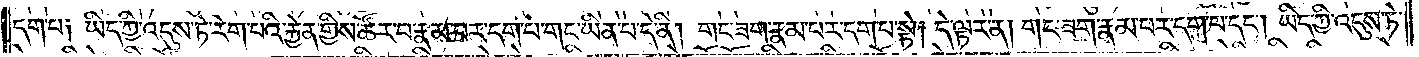དག་པ༑ ཡིད་ཀྱི་འདུས་ཏེ་རེག་པའི་རྐྱེན་གྱིས་ཚོར་བ་རྣམ་པར་དག་པ་གང་ཡིན་པ་དེ་ནི། གང་ཟག་རྣམ་པར་དག་པ་སྟེ། དེ་ལྟར་ན། གང་ཟག་རྣམ་པར་དག་པ་དང༌། ཡིད་ཀྱི་འདུས་ཏེ་
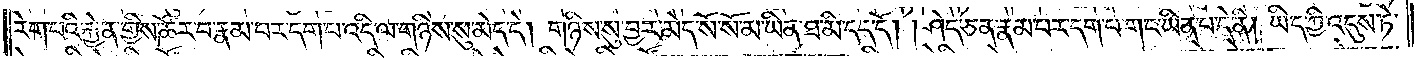རེག་པའི་རྐྱེན་གྱིས་ཚོར་བ་རྣམ་པར་དག་པ་འདི་ལ་གཉིས་སུ་མེད་དེ། གཉིས་སུ་བྱར་མེད་སོ་སོ་མ་ཡིན་ཐ་མི་དད་དོ། །ཤེད་ཅན་རྣམ་པར་དག་པ་གང་ཡིན་པ་དེ་ནི། ཡིད་ཀྱི་འདུས་ཏེ་
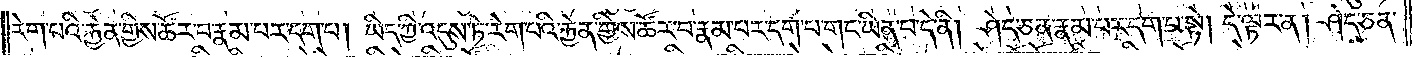རེག་པའི་རྐྱེན་གྱིས་ཚོར་བ་རྣམ་པར་དག་པ། ཡིད་ཀྱི་འདུས་ཏེ་རེག་པའི་རྐྱེན་གྱིས་ཚོར་བ་རྣམ་པར་དག་གང་ཡིན་པ་དེ་ནི། ཤེད་ཅན་རྣམ་པར་དག་པ་སྟེ། དེ་ལྟར་ན། ཤེད་ཅན་
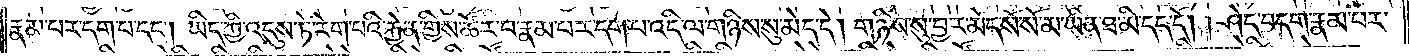རྣམ་པར་དག་པ་དང༌། ཡིད་ཀྱི་འདུས་ཏེ་རེག་པའི་རྐྱེན་གྱིས་ཚོར་བ་རྣམ་པར་དག་པ་འདི་ལ་གཉིས་སུ་མེད་དེ། གཉིས་སུ་བྱར་མེད་སོ་སོ་མ་ཡིན་ཐ་མི་དད་དོ། །ཤེད་བདག་རྣམ་པར་
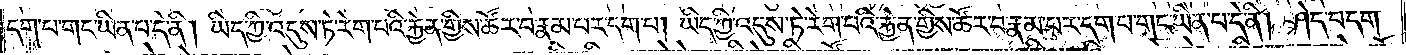དག་པ་གང་ཡིན་པ་དེ་ནི། ཡིད་ཀྱི་འདུས་ཏེ་རེག་པའི་རྐྱེན་གྱིས་ཚོར་བ་རྣམ་པར་དག་པ། ཡིད་ཀྱི་འདུས་ཏེ་རེག་པའི་རྐྱེན་གྱིས་ཚོར་བ་རྣམ་པར་དག་པ་གང་ཡིན་པ་དེ་ནི། ཤེད་བདག་
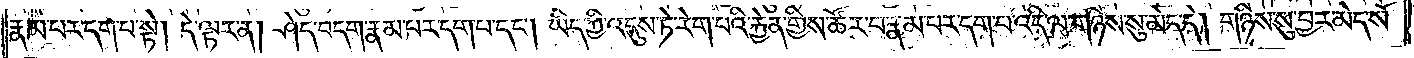རྣམ་པར་དག་པ་སྟེ། དེ་ལྟར་ན། ཤེད་བདག་རྣམ་པར་དག་པ་དང༌། ཡིད་ཀྱི་འདུས་ཏེ་རེག་པའི་རྐྱེན་གྱིས་ཚོར་བ་རྣམ་པར་དག་པ་འདི་ལ་གཉིས་སུ་མེད་དེ། གཉིས་སུ་བྱར་མེད་སོ་
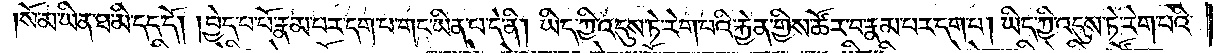སོ་མ་ཡིན་ཐ་མི་དད་དོ། །བྱེད་པ་པོ་རྣམ་པར་དག་པ་གང་ཡིན་པ་དེ་ནི། ཡིད་ཀྱི་འདུས་ཏེ་རེག་པའི་རྐྱེན་གྱིས་ཚོར་བ་རྣམ་པར་དག་པ། ཡིད་ཀྱི་འདུས་ཏེ་རེག་པའི་
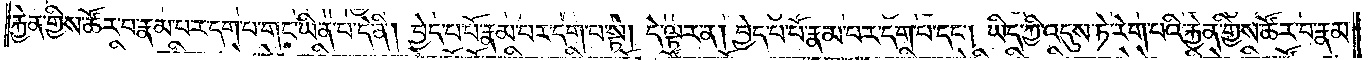རྐྱེན་གྱིས་ཚོར་བ་རྣམ་པར་དག་པ་གང་ཡིན་པ་དེ་ནི། བྱེད་པ་པོ་རྣམ་པར་དག་པ་སྟེ། དེ་ལྟར་ན། བྱེད་པ་པོ་རྣམ་པར་དག་པ་དང༌། ཡིད་ཀྱི་འདུས་ཏེ་རེག་པའི་རྐྱེན་གྱིས་ཚོར་བ་རྣམ་
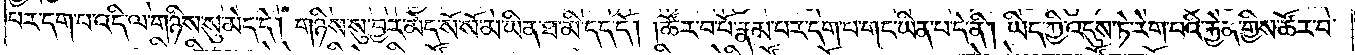པར་དག་པ་འདི་ལ་གཉིས་སུ་མེད་དེ། གཉིས་སུ་བྱར་མེད་སོ་སོ་མ་ཡིན་ཐ་མི་དད་དོ། །ཚོར་བ་པོ་རྣམ་པར་དག་པ་གང་ཡིན་པ་དེ་ནི། ཡིད་ཀྱི་འདུས་ཏེ་རེག་པའི་རྐྱེན་གྱིས་ཚོར་བ་
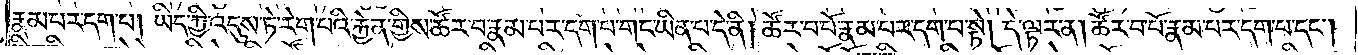རྣམ་པར་དག་པ། ཡིད་ཀྱི་འདུས་ཏེ་རེག་པའི་རྐྱེན་གྱིས་ཚོར་བ་རྣམ་པར་དག་པ་གང་ཡིན་པ་དེ་ནི། ཚོར་བ་པོ་རྣམ་པར་དག་པ་སྟེ། དེ་ལྟར་ན། ཚོར་བ་པོ་རྣམ་པར་དག་པ་དང༌།
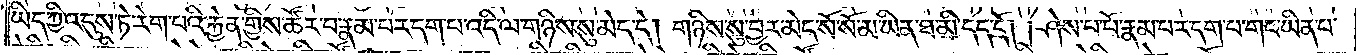ཡིད་ཀྱི་འདུས་ཏེ་རེག་པའི་རྐྱེན་གྱིས་ཚོར་བ་རྣམ་པར་དག་པ་འདི་ལ་གཉིས་སུ་མེད་དེ། གཉིས་སུ་བྱར་མེད་སོ་སོ་མ་ཡིན་ཐ་མི་དད་དོ། །ཤེས་པ་པོ་རྣམ་པར་དག་པ་གང་ཡིན་པ་
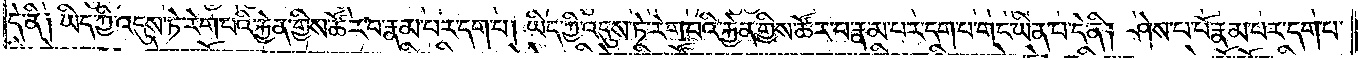དེ་ནི༑ ཡིད་ཀྱི་འདུས་ཏེ་རེག་པའི་རྐྱེན་གྱིས་ཚོར་བ་རྣམ་པར་དག་པ། ཡིད་ཀྱི་འདུས་ཏེ་རེག་པའི་རྐྱེན་གྱིས་ཚོར་བ་རྣམ་པར་དག་པ་གང་ཡིན་པ་དེ་ནི། ཤེས་པ་པོ་རྣམ་པར་དག་པ་
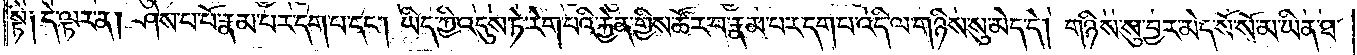སྟེ༑ དེ་ལྟར་ན། ཤེས་པ་པོ་རྣམ་པར་དག་པ་དང༌། ཡིད་ཀྱི་འདུས་ཏེ་རེག་པའི་རྐྱེན་གྱིས་ཚོར་བ་རྣམ་པར་དག་པ་འདི་ལ་གཉིས་སུ་མེད་དེ། གཉིས་སུ་བྱར་མེད་སོ་སོ་མ་ཡིན་ཐ་
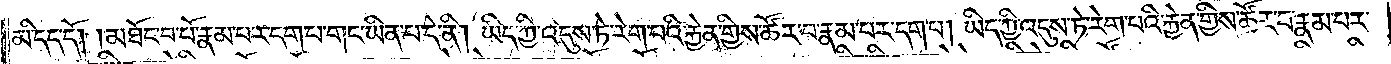མི་དད་དོ། །མཐོང་བ་པོ་རྣམ་པར་དག་པ་གང་ཡིན་པ་དེ་ནི། ཡིད་ཀྱི་འདུས་ཏེ་རེག་པའི་རྐྱེན་གྱིས་ཚོར་བ་རྣམ་པར་དག་པ། ཡིད་ཀྱི་འདུས་ཏེ་རེག་པའི་རྐྱེན་གྱིས་ཚོར་བ་རྣམ་པར་
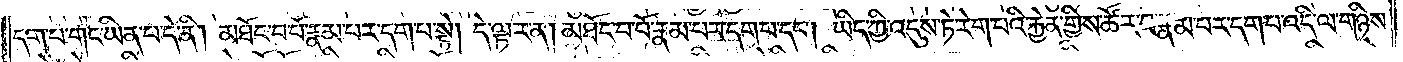དག་པ་གང་ཡིན་པ་དེ་ནི། མཐོང་བ་པོ་རྣམ་པར་དག་པ་སྟེ། དེ་ལྟར་ན། མཐོང་བ་པོ་རྣམ་པར་དག་པ་དང༌། ཡིད་ཀྱི་འདུས་ཏེ་རེག་པའི་རྐྱེན་གྱིས་ཚོར་བ་རྣམ་པར་དག་པ་འདི་ལ་གཉིས་
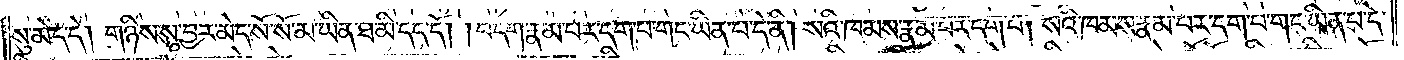སུ་མེད་དེ། གཉིས་སུ་བྱར་མེད་སོ་སོ་མ་ཡིན་ཐ་མི་དད་དོ། །བདག་རྣམ་པར་དག་པ་གང་ཡིན་པ་དེ་ནི། སའི་ཁམས་རྣམ་པར་དག་པ། སའི་ཁམས་རྣམ་པར་དག་པ་གང་ཡིན་པ་དེ་
